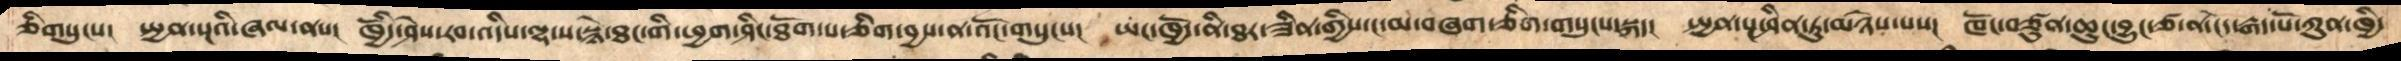ཅིགསུངས།  སྤྱན་སྔའི་གསུང་ནས།   ཁྱོདི་ཤེས་རབ་འདིས་ལྷ་ས་སྙེ་ཐང་གི་ཕྱག་ཤིང་ཐོག་པ་ཅིག་བྱས་ན་འོང་གསུངས།  ཡང་ཁྱོད་ནི་ཐར་ཟིན་གྱིས་ང་མ་བཞག་ཅིག་གསུངས་སྐད།  སྤྱན་སྔ་ཤིན་ཏུ་མཉེས་པས།  ཁོང་བཙུན་ཆུང་བྱུང་ཙ་ན་ངེད་རྒན་པོ་ཀུན་ཁྱི་
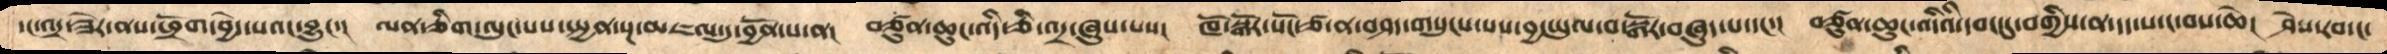དང་འདྲ་ཟེར་ནས་ཕྲོག་བྱེད་པའང་བྱུང་།   ལན་ཅིག་སྟོད་ལུང་པས་སྤྱན་སྔ་མཇལ་དུ་བྱོན་པ་ན།  བཙུན་ཆུང་འདི་ཅི་འདྲ་ཞུས་པས།  ཁོ་སྒོར་སོང་ཙ་ན་བཤད་གསུངས་པས་བྱ་ཡུལ་བ་སྒོར་བཞུད་པ་དང་།  བཙུན་ཆུང་འདིའི་དབང་དུ་བགྱིས་ན་དད་པ་ང་བས་ཆེ།  ཤེས་རབ་ང་
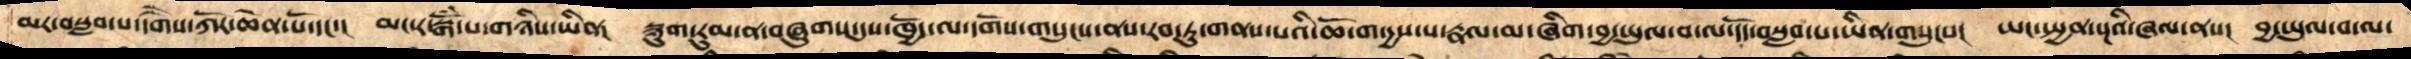མར་བསླབ་པ་དགཻས་ཀོར་ཆེན་པོ་དང་།  མང་ར་སྒོཾ་པ་གཉིས་ཡིན།  སྙུག་རུམ་ན་བཞུགས་དུས་ཁྱོད་ལ་དགོས་གསུངས་ནས་རབ་ཏུ་གནས་པའི་ཆོ་ག་དྱས་པ་རྣལ་མ་ཞིག་བྱ་ཡུལ་བ་ལ་དོད་བསླབ་པ་ཡིན་གསུངས།  ཡང་སྤྱན་སྔའི་ཞལ་ནས།  བྱ་ཡུལ་བ་ལ་
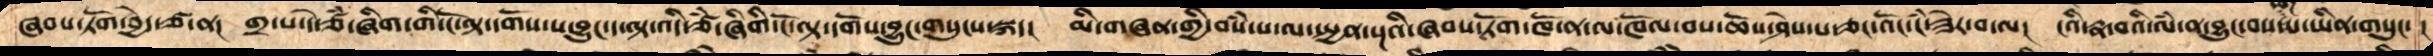ཞབས་ཏོག་བྱེད་ཙ་ན།  གྲ་པ་དེ་ཙཾ་ཞིག་གི་ངོ་ལྟ་དགོས་པ་བྱུང་ད་ལྟ་འདི་ཙཾ་ཞིགི་ངོ་ལྟ་དགོས་བྱུང་གསུང་སྐད།  མི་གཞན་གྱི་བསཾ་པ་ལ་སྤྱན་སྔའི་ཞབས་ཏོག་ཁོ་ན་ལ་ཁོལ་བས་ཆོས་ཤེས་པ་ཅང་འོང་ངཾ་ཟེར་བ་ལ།  ངའི་རྣ་བའི་ལཾ་ན་བྱུང་བས་པ་ཡིན་གསུང་།
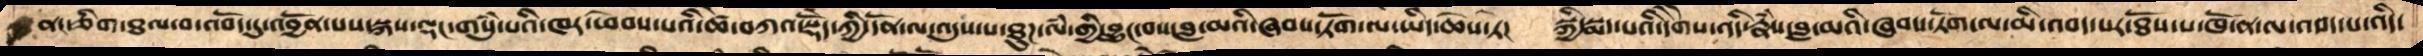ནང་ཅིག་ཐལ་བ་འབོད་དུ་འབྱོན་པས་སྐས་ལྡང་གསུཾ་པའི་ཁར་ཕེབས་པའི་ཚེ་བཀའ་སྡེོད་ཀྱི་དོན་ལ་འདུས་པ་ཐུཌ་ལཾ་གྱི་བྱུང་བས་བླ་མའི་ཞབས་ཏོག་ལ་ཡིད་ཆེས་ཏེ།  སྐྱི་སྨད་པའི་དགཻས་འདི་རྣཾས་བླ་མའི་ཞབས་ཏོག་ལ་མི་འབད་པར་ཐོས་པ་ཁོ་ན་ལ་འབད་པ་འདི་
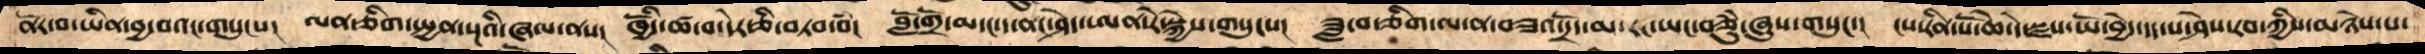ནོར་བ་ཡིན་བྱ་བའང་གསུངས།  ལན་གཅིག་སྤྱན་སྔའི་ཞལ་ནས།   ཁྱོདི་ཚ་བ་དེར་ཅི་བཏབ་བཾ།   བློ་གྲོ་མདང་ད་ནང་ཤེད་ཨན་རེ་སྐྱེས་གསུངས།  ཟླ་བ་ཅིག་ལ་ན་བཟའ་དྲོད་མ་རང་ཡང་བཅུཾ་ཞུས་གསུང་།  ངས་རིན་པོ་ཆེ་དེ་སྫས་ཡོ་བྱེད་དད་པ་ཤེས་རབ་ཀྱིས་མཉེས་པ་
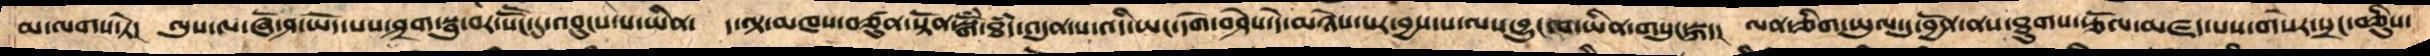མ་ལགས་ཏེ།  ལུས་ལ་ཞོ་ཤ་ཡོད་པས་ཤྲག་སྦུ་བར་སཽང་དུ་འབུངས་པ་ཡིན་  ད་ལྟ་མཁས་བཙུན་སྟོན་སྒོཾ་ཐཾད་འདུན་པ་འདི་ཡང་དགེ་བཤེས་དེ་མཉེས་པར་བྱས་པ་ལས་བྱུང་བ་ཡིན་གསུང་སྐད།  ལན་ཅིག་ཡུལ་དུ་བྱོན་ནས་ཐུགས་རྩོལ་མཛད་པས་གསེར་སྲང་བཅིུས་
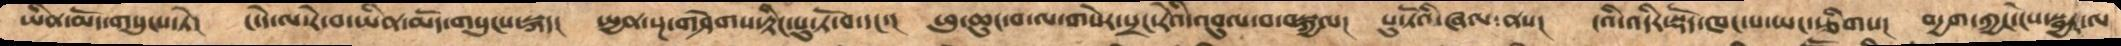ཡིན་མོད་གསུངསཏེ།   ང་དེ་ལ་རེ་བ་ཡིན་མདོ་གསུངས་སྐད།   སྤྱན་སྔ་གཤེགས་རྟིང་པུ་ཏོ་བ་དང་། ཕུ་ཆུང་བ་ལ་གསེར་སྲང་རེའི་འབུལ་བ་བསྐྱལ།  པུ་ཏོའི་ཞལ་ནས།  ངའི་འདིར་སྡོད་ཁང་པ་ཡང་རྩིགས།   བདྱག་ཀྱང་ངེས་སྦྱར་ལ
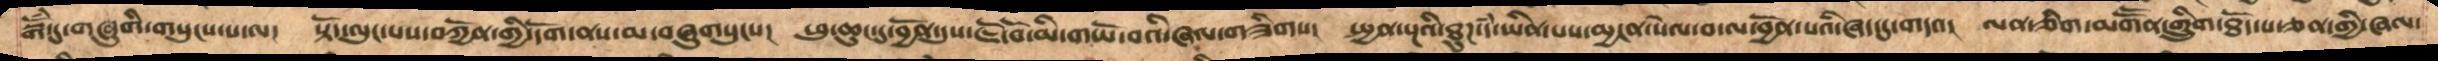སྒོཾ་དུ་གཞུགི་གསུངས་པ་ལ།  སྟོད་ལུང་པས་བཀྱོན་གྱི་དོག་ནས་མ་བཞུགསུངས།  ཕུ་ཆུང་དུ་བྱོན་དུས་ཇོ་བོ་མི་གཡོ་བའི་ཞལ་གཟིགས།   སྤྱན་སྔའི་ཐུཌ་དཾ་ཡིན་པས་མྱངན་སེལ་བ་ལ་བྱོན་པའི་ཞད་དུ་གདའ།   ལན་ཅིག་མགཽན་གྲིུག་ཐོད་པ་ཅན་གྱི་ཞལ་
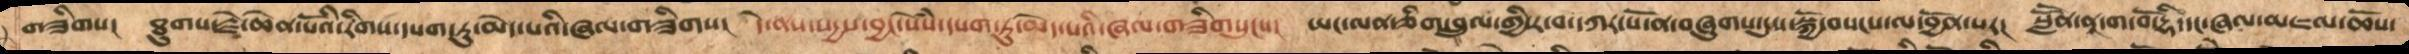གཟིགས།   ཐུགས་རྗེ་ཆེན་པོའི་རིགས་དཔག་ཏུ་མེད་པའི་ཞལ་གཟིགས།  དེ་ནས་སདྱས་བྱང་སེསཾ་དཔག་ཏུ་མེད་པའི་ཞལ་གཟིགསུངས།  ཡང་ལན་ཅིག་བྲུལ་གྱི་ར་བ་དཀར་པོ་ན་བཞུགས་དུས་སྐྱོ་བསངས་ལ་བྱོན་སར།   སླཽན་ནཱ་ག་བོ་དྷི་དང་ཞལ་མཇལ་ཆོས་
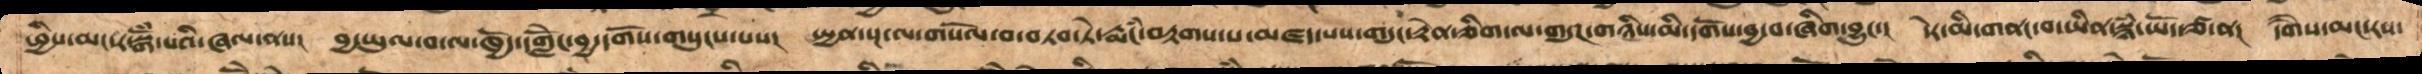ཕྱིས་མང་ར་སྒོཾ་པའི་ཞལ་ནས།  བྱ་ཡུལ་བ་ལ་ཁྱོད་དགླེོང་བྱ་དགོས་གསུངས་པས།  སྤྱན་སྔ་ལ་གསོལ་བ་བཏབ་ཏེ་རྨིཾ་བརྟགས་པ་མཛད་པས་གདུང་རྟེན་ཅིག་ལ་གདུཌ་གཉིས་མི་དགོས་བྱ་བ་ཞིག་བྱུང་།  དེར་མི་གནང་བ་ཡིན་སྙཾ་ཡོད་ཙ་ན།  དགཻས་མང་རས་
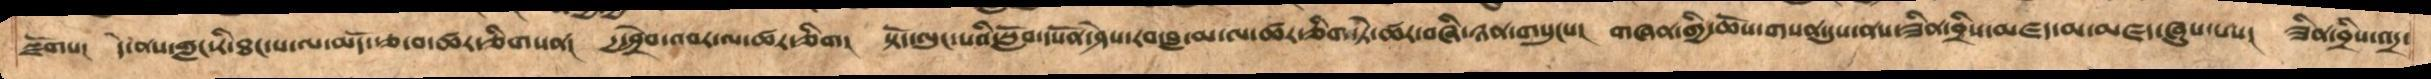སྫོགས།  དེ་ནས་གླང་རི་ཐང་པ་ལ་མདོ་རྩ་བ་ཚར་ཅིགསན།  དྱ་ཤྲེབ་འབར་ལ་ཚར་ཅིག།  སྟོད་ལུང་པའི་སློབ་དཔོན་ཤེས་རབ་བླ་མ་ལ་ཚར་ཅིག་ཏེ་ཚར་བཞི་ཉན་གསུངས།  གཞན་གྱི་ཆོས་གསན་དུས་ནས་ཟིན་བྲིས་མཛད་མ་མཛད་ཞུས་པས།  ཟིན་བྲིས་འདྲ་
